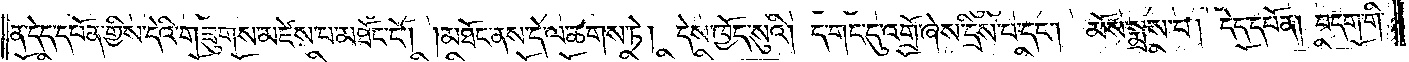ན་དེད་དཔོན་གྱིས་དེའི་གཟུགས་མཛེས་པ་མཐོང་ངོ༌། །མཐོང་ནས་དེ་ལ་ཆགས་ཏེ། དེས་ཁྱོད་སུའི། ད་གང་དུ་འགྲོ་ཞེས་དྲིས་པ་དང༌། མོས་སྨྲས་པ། དེད་དཔོན། བདག་གི་
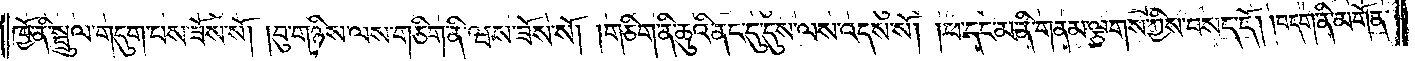ཁྱོ་ནི་སྦྲུལ་གདུག་པས་ཟོས་སོ། །བུ་གཉིས་ལས་གཅིག་ནི་ཝས་ཟོས་སོ། །གཅིག་ནི་ཆུའི་ནང་དུ་དུས་ལས་འདས་སོ། །ཕ་དང་མ་ནི་གནམ་ལྕགས་ཀྱིས་བསད་དོ། །བདག་ནི་མགོན་
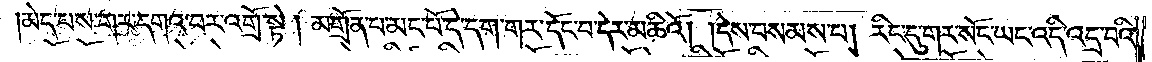མེད་པས་གར་དགའ་བར་འགྲོ་སྟེ། མགྲོན་པ་མང་པོ་དེ་དག་གར་དོང་བ་དེར་མཆིའོ། །དེས་བསམས་པ། རིང་དུ་གར་སོང་ཡང་འདི་འདྲ་བའི་
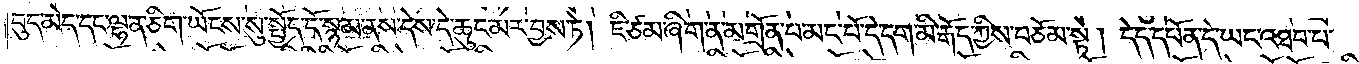བུད་མེད་དང་ལྷན་ཅིག་ཡོངས་སུ་སྤྱོད་དོ་སྙམ་ནས་དེས་དེ་ཆུང་མར་བྱས་ཏེ། ཇི་ཙམ་ཞིག་ན་མགྲོན་པ་མང་པོ་དེ་དག་མི་རྒོད་ཀྱིས་བཅོམ་སྟེ། དེད་དཔོན་དེ་ཡང་འཐབ་པ་
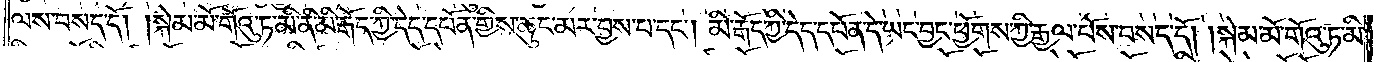ལས་བསད་དོ། །སྐེམ་མོ་གོའུ་ཏ་མི་ནི་མི་རྒོད་ཀྱི་དེད་དཔོན་གྱིས་ཆུང་མར་བྱས་པ་དང༌། མི་རྒོད་ཀྱི་དེད་དཔོན་དེ་ཡང་བྱང་ཕྱོགས་ཀྱི་རྒྱལ་པོས་བསད་དོ། །སྐེམ་མོ་གོའུ་ཏ་མི་
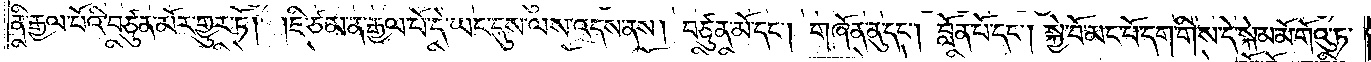ནི་རྒྱལ་པོའི་བཙུན་མོར་གྱུར་ཏོ། །ཇི་ཙམ་ན་རྒྱལ་པོ་དེ་ཡང་དུས་ལས་འདས་ནས། བཙུན་མོ་དང༌། གཞོན་ནུ་དང༌། བློན་པོ་དང༌། སྐྱེ་བོ་མང་པོ་དག་གིས་དེ་སྐེམ་མོ་གོའུ་ཏ་
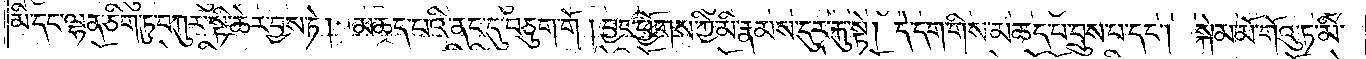མི་དང་ལྷན་ཅིག་ཏུ་བཀུར་སྟི་ཆེར་བྱས་ཏེ། མཆད་པའི་ནང་དུ་བཅུག་གོ །བྱང་ཕྱོགས་ཀྱི་མི་རྣམས་དུར་རྐུ་སྟེ། དེ་དག་གིས་མཆད་པ་བྲུས་པ་དང༌། སྐེམ་མོ་གོའུ་ཏ་མི་
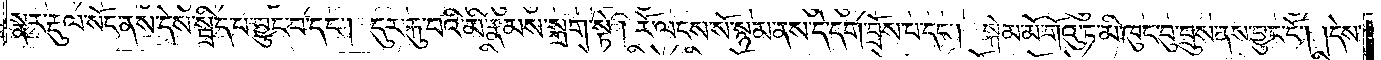སྣར་རྡུལ་སོང་ནས་དེས་སྦྲིད་པ་བྱུང་བ་དང༌། དུར་རྐུ་བའི་མི་རྣམས་སྐྲག་སྟེ། རོ་ལངས་སོ་སྙམ་ནས་དེ་དག་བྲོས་པ་དང༌། སྐེམ་མོ་གོའུ་ཏ་མི་ཁུང་བུ་བྲུས་ནས་བྱུང་ངོ༌། །དེས་
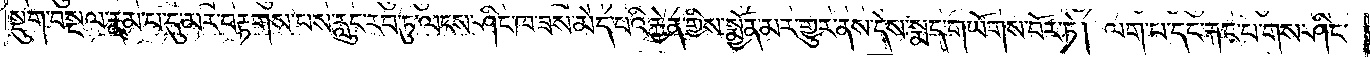སྡུག་བསྔལ་རྣམ་པ་དུ་མར་བརྟགས་པས་རླུང་རབ་ཏུ་ལངས་ཤིང་ཁ་ཟས་མེད་པའི་རྐྱེན་གྱིས་སྨྱོན་མར་གྱུར་ནས་དེས་སྨད་གཡོགས་བོར་ཏེ། ལག་པ་དང་རྐང་པ་གས་ཤིང་
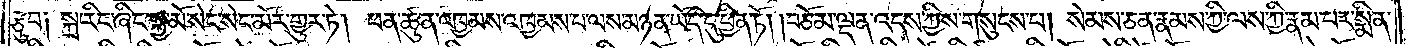རྩུབ༑ སྐྲ་རིང་ཞིང་སྐྱ་མོ་སེང་སེང་མོར་གྱུར་ཏེ། ཕན་ཚུན་འཁྱམས་འཁྱམས་པ་ལས་མཉན་ཡོད་དུ་ཕྱིན་ཏོ། །བཅོམ་ལྡན་འདས་ཀྱིས་གསུངས་པ། སེམས་ཅན་རྣམས་ཀྱི་ལས་ཀྱི་རྣམ་པར་སྨིན་
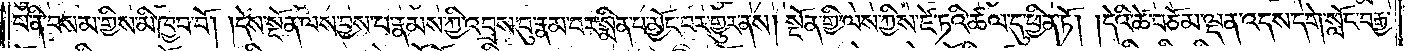པ་ནི་བསམ་གྱིས་མི་ཁྱབ་བོ། །དེས་སྔོན་ལས་བྱས་པ་རྣམས་ཀྱི་འབྲས་བུ་རྣམ་པར་སྨིན་པ་མྱོང་བར་གྱུར་ནས། སྔོན་གྱི་ལས་ཀྱིས་ཛེ་ཏའི་ཚལ་དུ་ཕྱིན་ཏོ། །དེའི་ཚེ་བཅོམ་ལྡན་འདས་དགེ་སློང་བརྒྱ་
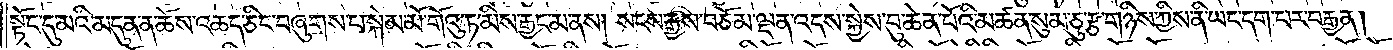སྟོང་དུ་མའི་མདུན་ན་ཆོས་འཆད་ཅིང་བཞུགས་པ་སྐེམ་མོ་གོའུ་ཏ་མིས་རྒྱང་མ་ནས། སངས་རྒྱས་བཅོམ་ལྡན་འདས་སྐྱེས་བུ་ཆེན་པོའི་མཚན་སུམ་ཅུ་རྩ་གཉིས་ཀྱིས་ནི་ཡང་དག་པར་བརྒྱན།
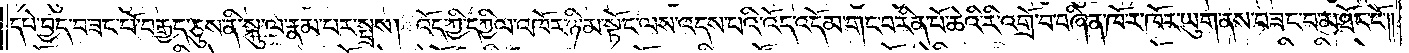དཔེ་བྱེད་བཟང་པོ་བརྒྱད་ཅུས་ནི་སྐུ་ལ་རྣམ་པར་སྤྲས། འོད་ཀྱི་དཀྱིལ་འཁོར་ཉི་མ་སྟོང་ལས་འདས་པའི་འོད་འདོམ་གང་བ་རིན་པོ་ཆེའི་རི་འགྲོ་བ་བཞིན་ཁོ་ར་ཁོར་ཡུག་ནས་བཟང་བ་མཐོང་ངོ༌། །
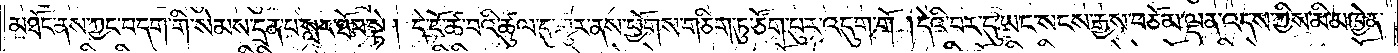མཐོང་ནས་ཀྱང་བདག་གི་སེམས་དྲན་པ་སླར་ཐོབ་སྟེ། དེ་ངོ་ཚ་བའི་ཚུལ་དུ་གྱུར་ནས་ཕྱོགས་གཅིག་ཏུ་ཙོག་པུར་འདུག་གོ །དེའི་བར་དུ་ཡང་སངས་རྒྱས་བཅོམ་ལྡན་འདས་ཀྱིས་མི་མཁྱེན་
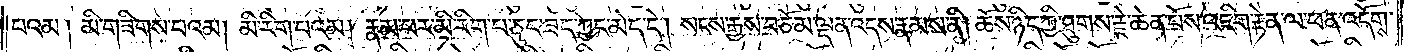པའམ། མི་གཟིགས་པའམ། མི་རིག་པའམ། རྣམ་པར་མི་རིག་པ་ཅུང་ཟད་ཀྱང་མེད་དེ། སངས་རྒྱས་བཅོམ་ལྡན་འདས་རྣམས་ནི། ཆོས་ཉིད་ཀྱི་ཐུགས་རྗེ་ཆེན་པོས་འཇིག་རྟེན་ལ་ཕན་འདོགས་
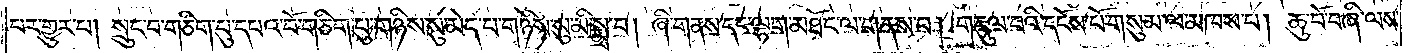པར་གྱུར་པ། སྲུང་བ་གཅིག་པུ་དཔའ་བོ་གཅིག་པུ་གཉིས་སུ་མེད་པ་གཉིས་སུ་མི་སྨྲ་བ། ཞི་གནས་དང་ལྷག་མཐོང་ལ་གནས་པ། གདུལ་བའི་དངོས་པོ་གསུམ་ལ་མཁས་པ། ཆུ་བོ་བཞི་ལས་
